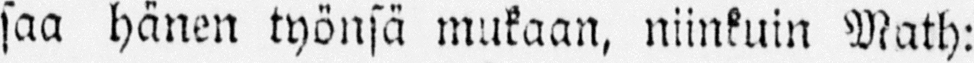saa hänen työnsä mukaan, niinkuin Math:
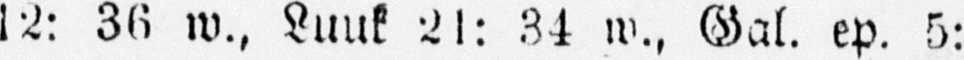12: 36 w., Luuk 21: 34 w., Gal. ep. 5:
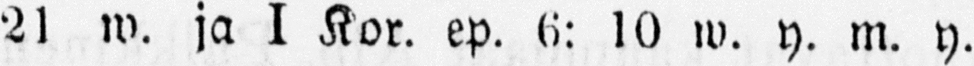21 w. ja I Kor. ep. 6: 10 w. y. m. y.
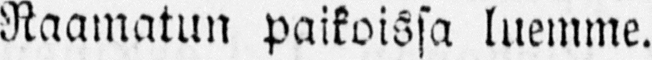Raamatun paikoissa luemme.
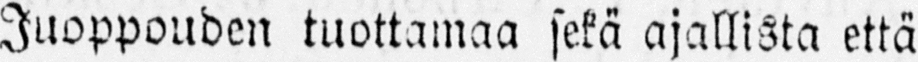Juoppouden tuottamaa sekä ajallista että
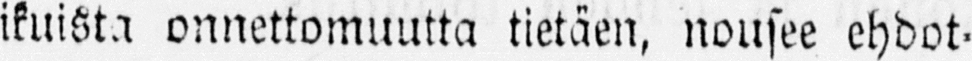ikuista onnettomuutta tietäen, nousee ehdot-
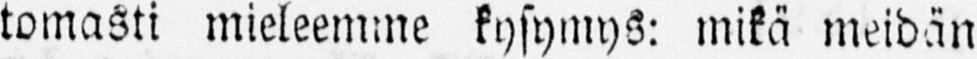tomasti mieleemme kysymys: mikä meidän
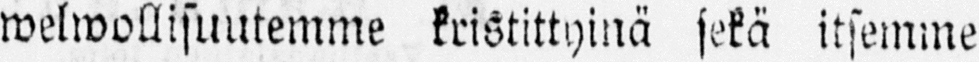welwollisuutemme kristittyinä sekä itsemme
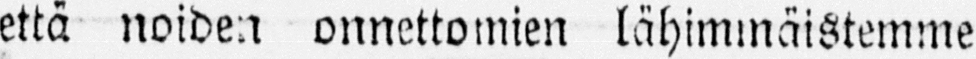että noiden onnettomien lähimmäistemme
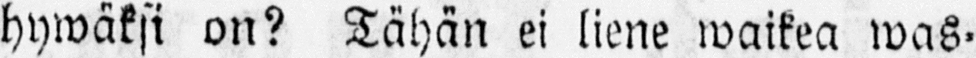hywäksi on? Tähän ei liene waikea was-
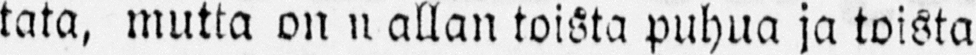tata, mutta on wallan toista puhua ja toista
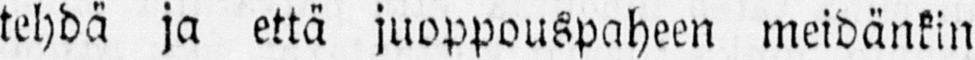tehdä ja että juoppouspaheen meidänkin
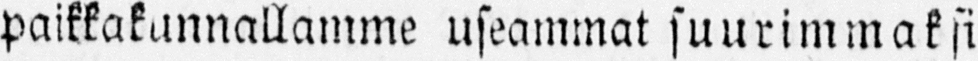paikkakunnallamme useammat suurimmaksi
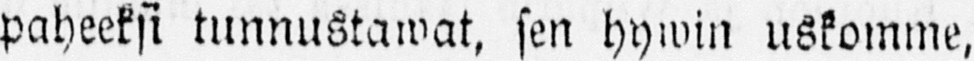paheeksi tunnustawat, sen hywin uskomme,
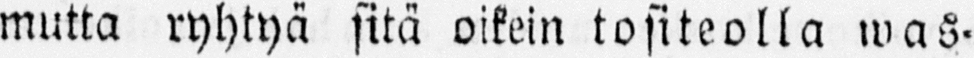mutta ryhtyä sitä oikein tositeolla was-
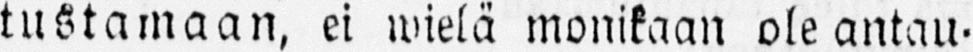tustamaan, ei wielä monikaan ole antau-
